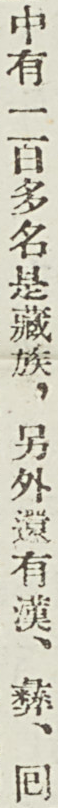中有一百多名是藏族，另外還有漢、彝、囘
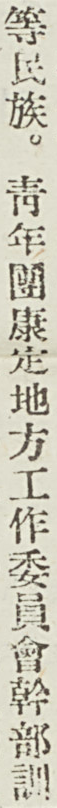等民族。靑年團康定地方工作委員會幹部訓
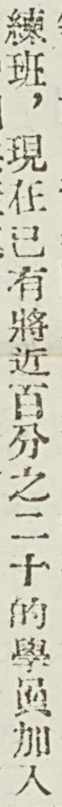練班，現在已有將近百分之二十的學員加入
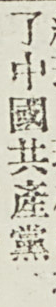了中國共產黨。
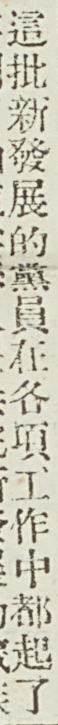這批新發展的黨員在各項工作中都起了
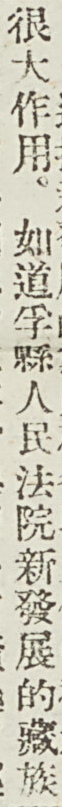很大作用。如道孚縣人民法院新發展的藏族
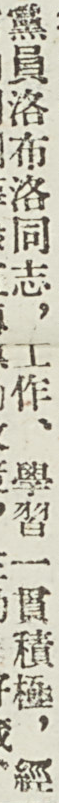黨員洛布洛同志，工作、學習一關積極，經
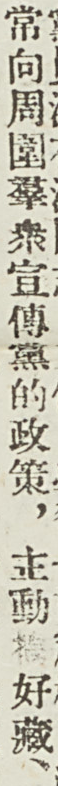常向周圍羣衆宣傳黨的政策，主動搞好藏、
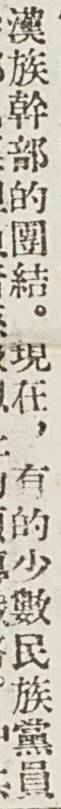漢族幹部的團結。現在，有的少數民族黨員
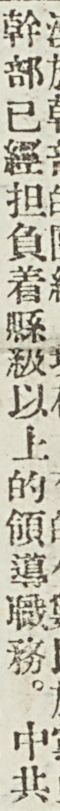幹部已經担負着縣級以上的領導職務。中共
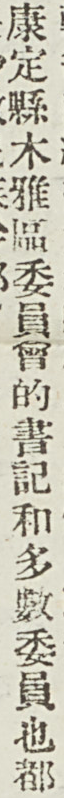康定縣木雅區委員會的書記和多數委員也都
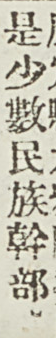是少數民族幹部。
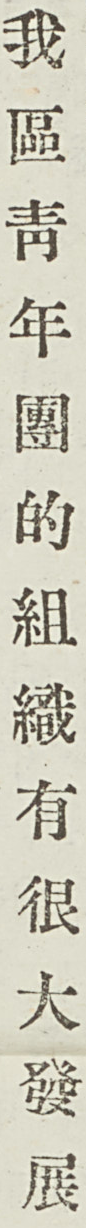我區靑年團的組織有很大發展
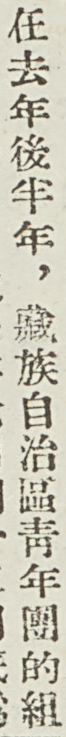在去年後半年，藏族自治區靑年團的組
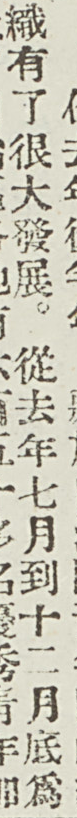織有了很大發展。從去年七月到十二月底爲
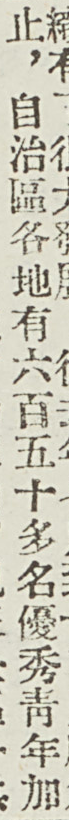止，自治區各地有六百五十多名優秀靑年加
